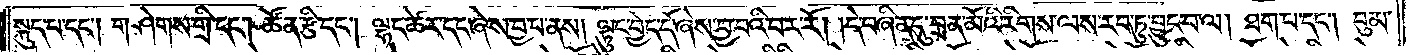སྐུད་པ་དང༌། གཤེགས་གྲི་དང༌། ཚོན་རྩི་དང༌། ལྷང་ཚེར་དང་ཞེས་བྱ་བ་ནས། ལྟུང་བྱེད་དོ་ཞེས་བྱ་བའི་བར་རོ། །དེ་བཞིན་དུ་བྲན་མོའི་རིགས་ལས་རབ་ཏུ་བྱུང་བ་ལ། ཐག་པ་དང༌། བུམ་
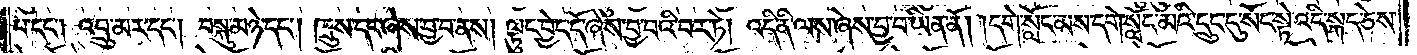པ་དང༌། འབྲུ་མར་དང༌། བསྐུ་མཉེ་དང༌། ཁྲུས་དང་ཞེས་བྱ་བ་ནས། ལྟུང་བྱེད་དོ་ཞེས་བྱ་བའི་བར་ཏེ། འདི་ནི་ལས་ཞེས་བྱ་བ་ཡིན་ནོ། །དགེ་སློང་མས་དགེ་སློང་མའི་དྲུང་དུ་སོང་སྟེ་འདི་སྐད་ཅེས་
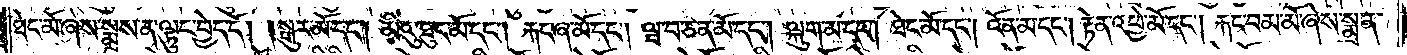ཐེང་མོ་ཞེས་སྨྲས་ན་ལྟུང་བྱེད་དོ། །སྒུར་མོ་དང༌། མིའུ་ཐུང་མོ་དང༌། རྐང་ཞ་མོ་དང༌། ཝ་བ་ཅན་མོ་དང༌། ལྐུག་མ་དང༌། ཐེང་མོ་དང༌། འོན་མ་དང༌། རྟེན་འཕྱེ་མོ་དང༌། རྐང་བམ་མོ་ཞེས་སྨྲ་ན་
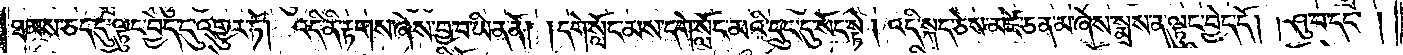ཐམས་ཅད་དུ་ལྟུང་བྱེད་དུ་འགྱུར་ཏོ། འདི་ནི་རྟགས་ཞེས་བྱ་བ་ཡིན་ནོ། །དགེ་སློང་མས་དགེ་སློང་མའི་དྲུང་དུ་སོང་སྟེ། འདི་སྐད་ཅེས་མཛེ་ཅན་མ་ཞེས་སྨྲས་ན་ལྟུང་བྱེད་དོ། །ཤུ་བ་དང༌།
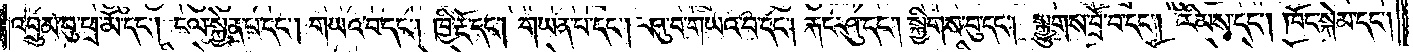འབྲུམ་བུ་ཕྲ་མོ་དང༌། ངལ་སྐྱེན་པ་དང༌། གཡའ་བ་དང༌། ཁྱི་རྡོ་དང༌། གཡན་པ་དང༌། ཤུ་བ་གཡའ་བ་དང༌། རྐང་ཤུ་དང༌། སྐྱིགས་བུ་དང༌། སྐྱུགས་བྲོ་བ་དང༌། རིམས་དང༌། ཁོང་སྐེམ་དང༌།
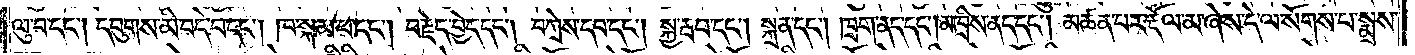ལུ་བ་དང༌། དབུགས་མི་བདེ་བ་དང༌། ཁ་སྐམ་པ་དང༌། བརྗེད་བྱེད་དང༌། བཀྲེས་དབ་དང༌། སྐྱ་རྦབ་དང༌། སྐྲན་དང༌། ཁྲག་ནད་དང༌། མ་བྲིས་ནད་དང༌། མཚན་པར་རྡོལ་མ་ཞེས་དེ་ལ་སོགས་པ་སྨྲས་
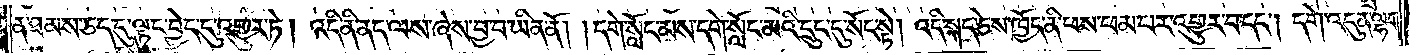ན་ཐམས་ཅད་དུ་ལྟུང་བྱེད་དུ་འགྱུར་ཏེ། འདི་ནི་ནད་ལས་ཞེས་བྱ་བ་ཡིན་ནོ། །དགེ་སློང་མས་དགེ་སློང་མའི་དྲུང་དུ་སོང་སྟེ། འདི་སྐད་ཅེས་ཁྱོད་ནི་ཕས་ཕམ་པར་འགྱུར་བ་དང༌། དགེ་འདུན་ལྷག་
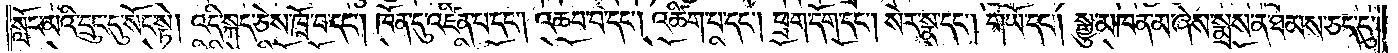སློང་མའི་དྲུང་དུ་སོང་སྟེ། འདི་སྐད་ཅེས་ཁྲོ་བ་དང༌། ཁོན་དུ་འཛིན་པ་དང༌། འཆབ་པ་དང༌། འཚིག་པ་དང༌། ཕྲག་དོག་དང༌། སེར་སྣ་དང༌། གཡོ་དང༌། སྒྱུ་མཁན་མ་ཞེས་སྨྲས་ན་ཐམས་ཅད་དུ་
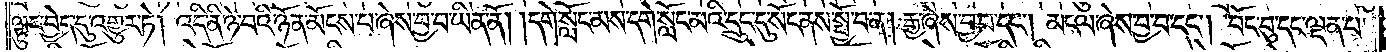ལྟུང་བྱེད་དུ་འགྱུར་ཏེ། འདི་ནི་ཉེ་བའི་ཉོན་མོངས་པ་ཞེས་བྱ་བ་ཡིན་ནོ། །དགེ་སློང་མས་དགེ་སློང་མའི་དྲུང་དུ་སོང་ནས་སྤྱོ་བ་ན། རྒྱ་ཞེས་བྱ་བ་དང༌། མངལ་ཞེས་བྱ་བ་དང༌། བོང་བུ་དང་ལྡན་པ་
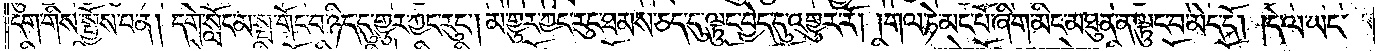དག་གིས་སྤྱོས་པ་ན། དགེ་སློང་མ་སྤ་གོང་པ་ཉིད་དུ་གྱུར་ཀྱང་རུང༌། མ་གྱུར་ཀྱང་རུང་ཐམས་ཅད་དུ་ལྟུང་བྱེད་དུ་འགྱུར་རོ། །གལ་ཏེ་མང་པོ་ཞིག་མིང་མཐུན་ན་ལྟུང་བ་མེད་དོ། །དེ་ལ་ཡང་
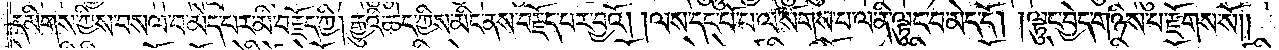དམིགས་ཀྱིས་བསལ་བ་མེད་པར་མི་བརྗོད་ཀྱི། རྒྱུའི་ཆེད་ཀྱིས་མིང་ནས་བརྗོད་པར་བྱའོ། །ལས་དང་པོ་པ་ལ་སོགས་པ་ལ་ནི་ལྟུང་བ་མེད་དོ། །ལྟུང་བྱེད་གཉིས་པ་རྫོགས་སོ༎
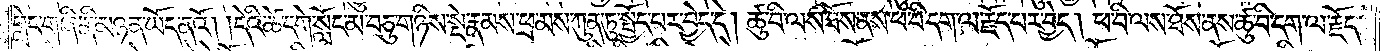གླེང་གཞི་ནི་མཉན་ཡོད་ནའོ། །དེའི་ཚེ་དགེ་སློང་མ་བཅུ་གཉིས་སྡེ་རྣམས་ཕྲ་མས་ཀུན་ཏུ་སྤྱོད་པར་བྱེད་དེ། ཚུ་བི་ལས་ཐོས་ནས་ཕ་བི་དག་ལ་རྗོད་པར་བྱེད། ཕ་བི་ལས་ཐོས་ནས་ཚུ་བི་དག་ལ་རྗོད་
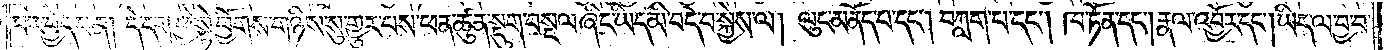པར་བྱེད་པ་ན། དེ་དག་ཕྱེ་སྟེ་ཕྱོགས་གཉིས་སུ་གྱུར་པས་ཕན་ཚུན་སྡུག་བསྔལ་ཞིང་ཡིད་མི་བདེ་བ་སྐྱེས་ལ། ལུང་མནོད་པ་དང༌། བཀླག་པ་དང༌། ཁ་ཏོན་དང༌། རྣལ་འབྱོར་དང༌། ཡིད་ལ་བྱ་བ་
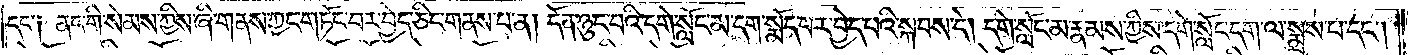དང་༑ ནང་གི་སེམས་ཀྱིས་ཞི་གནས་ཀྱང་གཏོང་བར་བྱེད་ཅིང་གནས་པ་ན། དོན་ཉུང་བའི་དགེ་སློང་མ་དག་སྨོད་པར་བྱེད་པའི་སྐབས་དེ། དགེ་སློང་མ་རྣམས་ཀྱིས་དགེ་སློང་དག་ལ་སྨྲས་པ་དང༌།
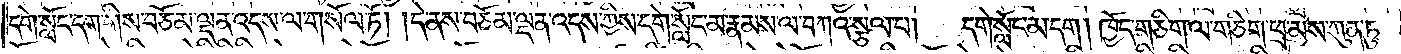དགེ་སློང་དག་གིས་བཅོམ་ལྡན་འདས་ལ་གསོལ་ཏོ། །དེ་ནས་བཅོམ་ལྡན་འདས་ཀྱིས་དགེ་སློང་མ་རྣམས་ལ་བཀའ་སྩལ་པ། དགེ་སློང་མ་དག། ཁྱོད་གཅིག་ལ་གཅིག་ཕྲ་མས་ཀུན་ཏུ་
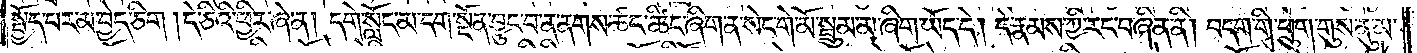སྤྱོད་པར་མ་བྱེད་ཅིག །དེ་ཅིའི་ཕྱིར་ཞེ་ན། དགེ་སློང་མ་དག་སྔོན་བྱུང་བ་ན་ནགས་ཚང་ཚིང་ཞིག་ན་སེང་གེ་མོ་སྦྲུམ་མ་ཞིག་ཡོད་དེ། དེ་རྣམས་ཀྱི་རང་བཞིན་ནི། བདག་གི་ཕྲུག་གུས་ནུ་མ་
